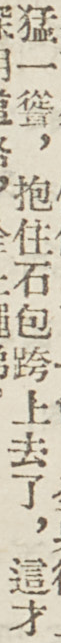猛一聳，抱住石包跨上去了，這才
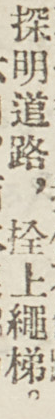探名道路，拴上繩梯。
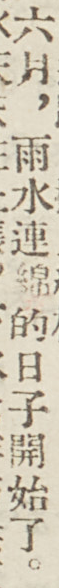六月，雨水連綿的日子開始了。
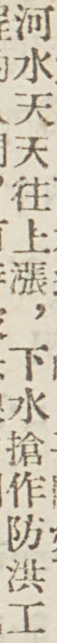河水天天往上漲，下水搶作防洪工
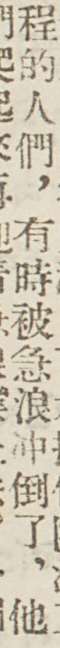程的人們，有時被急浪沖倒了，他
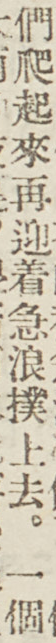們爬起來再迎着急浪撲上去。一個
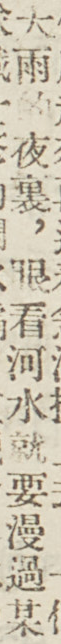大雨的夜裏，眼看河水就要漫過某
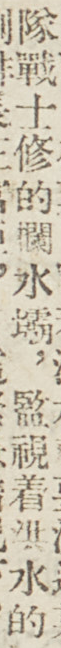隊戰士修的攔水壩，監視着洪水的
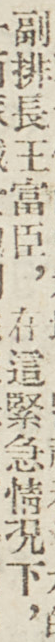副排長王富臣，在這緊急情況下，
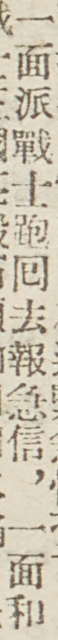一面派戰士跑囘去報急信，一面和
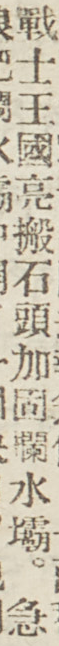戰士王國亮搬石頭加固攔水壩。急
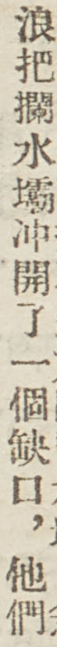浪把攔水壩沖開了一個缺口，他們
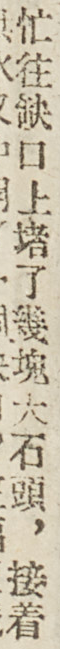忙往缺口上堵了幾塊大石頭，接着
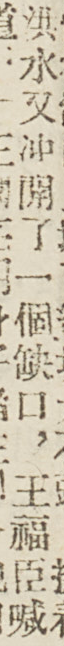洪水又沖開了一個缺口，王福臣喊
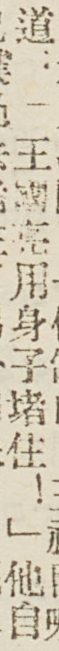道：「王國亮用身子堵住！」他自
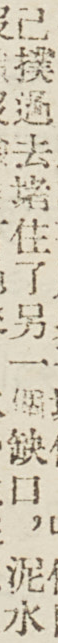己撲過去堵住了另一個缺口，泥水
